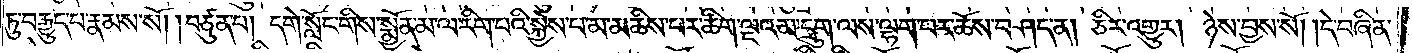ཏུ་བརྒྱུད་པ་རྣམས་སོ། །བཙུན་པ། དགེ་སློང་གིས་སྨྱོན་མ་ལ་རིག་པའི་སྐྱེས་པ་མ་མཆིས་པར་ཚིག་ལྔའམ་དྲུག་ལས་ལྷག་པར་ཆོས་བཤད་ན། ཅིར་འགྱུར། ཉེས་བྱས་སོ། །དེ་བཞིན་
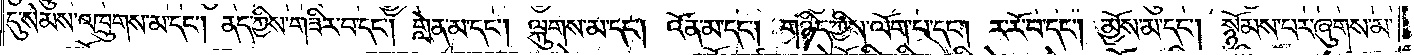དུ་སེམས་འཁྲུགས་མ་དང༌། ནད་ཀྱིས་གཟིར་བ་དང༌། གླེན་མ་དང༌། ལྐུགས་མ་དང༌། འོན་མ་དང༌། གཉིད་ཀྱིས་ལོག་པ་དང༌། ར་རོ་བ་དང༌། མྱོས་མ་དང༌། སྙོམས་པར་ཞུགས་མ་
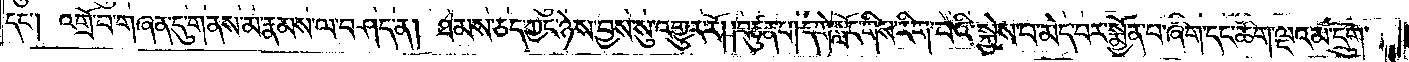དང༌། འགྲོ་བ་གཞན་དུ་གནས་མ་རྣམས་ལ་བཤད་ན། ཐམས་ཅད་ཀྱང་ཉེས་བྱས་སུ་འགྱུར་རོ། །བཙུན་པ། དགེ་སློང་གིས་རིག་པའི་སྐྱེས་པ་མེད་པར་སྨྱོན་པ་ཞིག་དང་ཚིག་ལྔའམ་དྲུག་
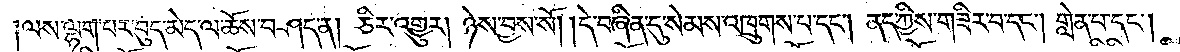།ལས་ལྷག་པར་བུད་མེད་ལ་ཆོས་བཤད་ན། ཅིར་འགྱུར། ཉེས་བྱས་སོ། །དེ་བཞིན་དུ་སེམས་འཁྲུགས་པ་དང༌། ནད་ཀྱིས་གཟིར་བ་དང༌། གླེན་པ་དང༌།
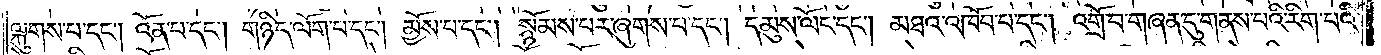ལྐུགས་པ་དང༌། འོན་པ་དང༌། གཉིད་ལོག་པ་དང༌། མྱོས་པ་དང༌། སྙོམས་པར་ཞུགས་པ་དང༌། དམུས་ལོང་དང༌། མཐའ་འཁོབ་པ་དང༌། འགྲོ་བ་གཞན་དུ་གནས་པའི་རིག་པའི་
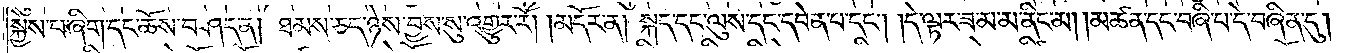སྐྱེས་པ་ཞིག་དང་ཆོས་བཤད་ན། ཐམས་ཅད་ཉེས་བྱས་སུ་འགྱུར་རོ། །མདོར་ན། སྐད་དང་ལུས་དང་དབེན་པ་དང༌། །དེ་ལྟར་ཟ་མ་མ་ནིང་མ། །མཚན་དང་བཞི་པ་དེ་བཞིན་དུ།
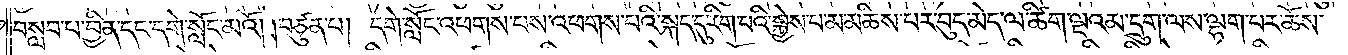བསླབ་པ་བྱིན་དང་དགེ་སློང་མའོ། །བཙུན་པ། དགེ་སློང་འཕགས་པས་འཕགས་པའི་སྐད་དུ་རིག་པའི་སྐྱེས་པ་མ་མཆིས་པར་བུད་མེད་ལ་ཚིག་ལྔའམ་དྲུག་ལས་ལྷག་པར་ཆོས་
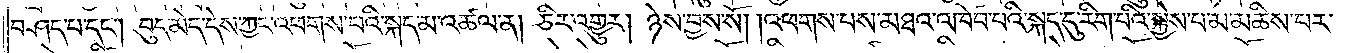བཤད་པ་དང༌། བུད་མེད་དེས་ཀྱང་འཕགས་པའི་སྐད་མ་འཚལ་ན། ཅིར་འགྱུར། ཉེས་བྱས་སོ། །འཕགས་པས་མཐའ་འཁོབ་པའི་སྐད་དུ་རིག་པའི་སྐྱེས་པ་མ་མཆིས་པར་
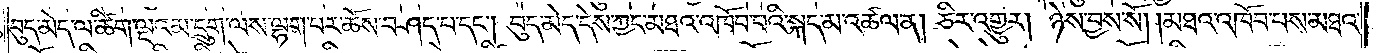བུད་མེད་ལ་ཚིག་ལྔའམ་དྲུག་ལས་ལྷག་པར་ཆོས་བཤད་པ་དང༌། བུད་མེད་དེས་ཀྱང་མཐའ་འཁོབ་པའི་སྐད་མ་འཚལ་ན། ཅིར་འགྱུར། ཉེས་བྱས་སོ། །མཐའ་འཁོབ་པས་མཐའ་
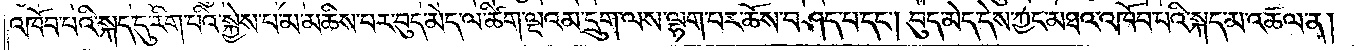འཁོབ་པའི་སྐད་དུ་རིག་པའི་སྐྱེས་པ་མ་མཆིས་པར་བུད་མེད་ལ་ཚིག་ལྔའམ་དྲུག་ལས་ལྷག་པར་ཆོས་བཤད་པ་དང༌། བུད་མེད་དེས་ཀྱང་མཐའ་འཁོབ་པའི་སྐད་མ་འཚལ་ན།
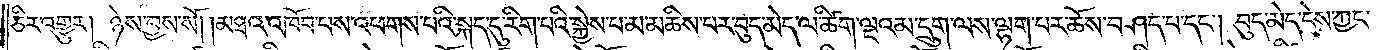ཅིར་འགྱུར། ཉེས་བྱས་སོ། །མཐའ་འཁོབ་པས་འཕགས་པའི་སྐད་དུ་རིག་པའི་སྐྱེས་པ་མ་མཆིས་པར་བུད་མེད་ལ་ཚིག་ལྔའམ་དྲུག་ལས་ལྷག་པར་ཆོས་བཤད་པ་དང༌། བུད་མེད་དེས་ཀྱང་
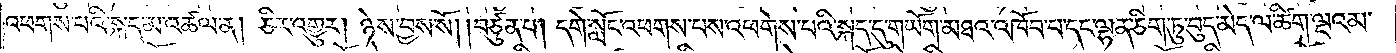འཕགས་པའི་སྐད་མ་འཚལ་ན། ཅིར་འགྱུར། ཉེས་བྱས་སོ། །བཙུན་པ། དགེ་སློང་འཕགས་པས་འཕགས་པའི་སྐད་དུ་གཡོག་མཐའ་འཁོབ་པ་དང་ལྷན་ཅིག་ཏུ་བུད་མེད་ལ་ཚིག་ལྔའམ་
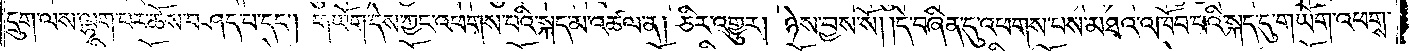དྲུག་ལས་ལྷག་པར་ཆོས་བཤད་པ་དང༌། གཡོག་དེས་ཀྱང་འཕགས་པའི་སྐད་མ་འཚལ་ན། ཅིར་འགྱུར། ཉེས་བྱས་སོ། །དེ་བཞིན་དུ་འཕགས་པས་མཐའ་འཁོབ་པའི་སྐད་དུ་གཡོག་འཕགས་
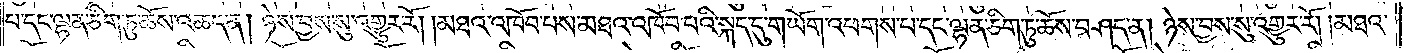པ་དང་ལྷན་ཅིག་ཏུ་ཆོས་འཆད་ན། ཉེས་བྱས་སུ་འགྱུར་རོ། །མཐའ་འཁོབ་པས་མཐའ་འཁོབ་པའི་སྐད་དུ་གཡོག་འཕགས་པ་དང་ལྷན་ཅིག་ཏུ་ཆོས་བཤད་ན། ཉེས་བྱས་སུ་འགྱུར་རོ། །མཐའ་
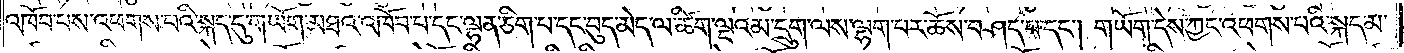འཁོབ་པས་འཕགས་པའི་སྐད་དུ་གཡོག་མཐའ་འཁོབ་པ་དང་ལྷན་ཅིག་པ་དང་བུད་མེད་ལ་ཚིག་ལྔའམ་དུག་ལས་ལྷག་པར་ཆོས་བཤད་པ་དང༌། གཡོག་དེས་ཀྱང་འཕགས་པའི་སྐད་མ་
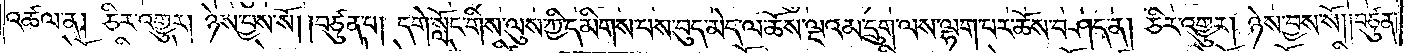འཚལ་ན། ཅིར་འགྱུར། ཉེས་བྱས་སོ། །བཙུན་པ། དགེ་སློང་གིས་ལུས་ཀྱི་དམིགས་པས་བུད་མེད་ལ་ཆོས་ལྔའམ་དྲུག་ལས་ལྷག་པར་ཆོས་བཤད་ན། ཅིར་འགྱུར། ཉེས་བྱས་སོ། །བཙུན་
